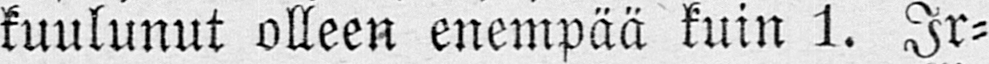kuulunut olleen enempää kuin 1. Ir-
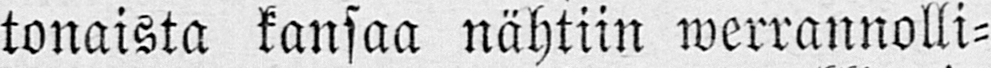tonaista kansaa nähtiin werrannolli-
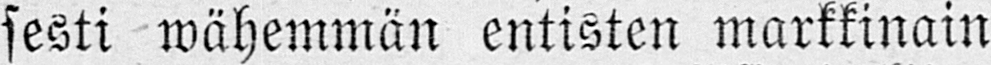sesti wähemmän entisten markkinain
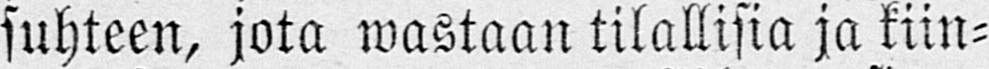suhteen, jota wastaan tilallisia ja kiin-
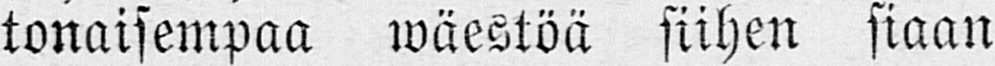tonaisempaa wäestöä siihen siaan
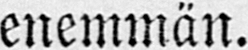eneimnän.
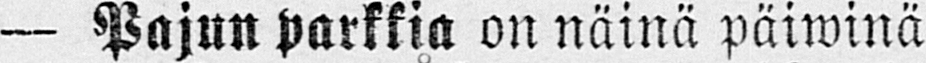— Pajun parkkia on näinä päiwinä
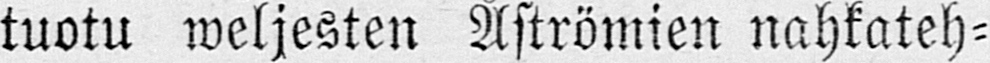tuotu weljesten Åströmien nahkateh-
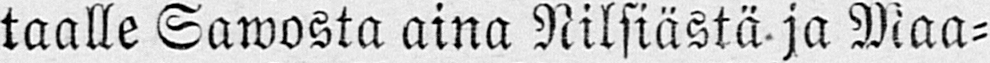taalle Sawosta aina Nilsiästä ja Maa-
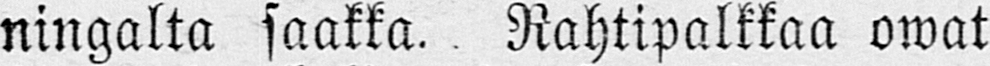ningalta saakka. Rahtipalkkaa owat
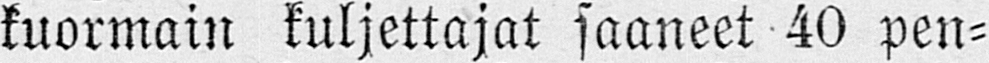kuormain kuljettajat saaneet 40 pen-
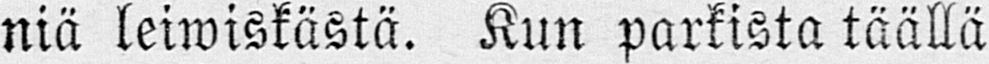niä leiwiskästä. Kun parkista täällä
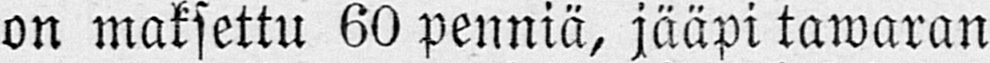on maksettu 60 penniä, jääpi tawaran
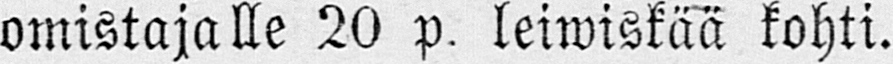omistajalle 20 p. leiwiskäa kohti.
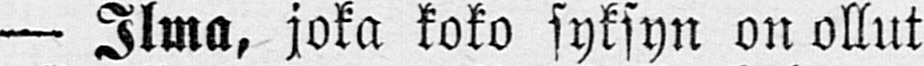— Ilma, joka koko syksyn on ollut
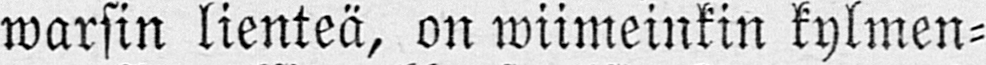warsin lienteä, on wiimeinkin kylmen-
